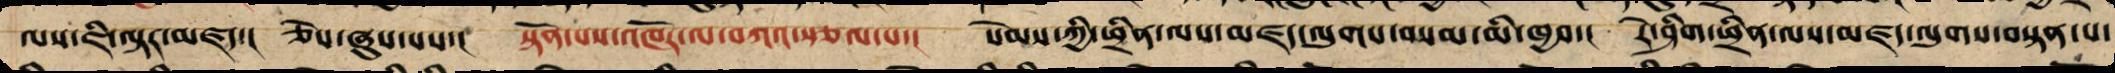ལས་ཇི་ལྟར་མཛད་། ཅེས་ཞུས་པས། སྟོན་པས་འཁོར་ལ་བཀའ་སྩལ་པ་། སེམས་ཀྱི་ཕྲིན་ལས་མཛད་ལུགས་བསམ་མི་ཁྱབ་། རེ་ཤིག་ཕྲིན་ལས་མཛད་ལུགས་བསྟན་པ་
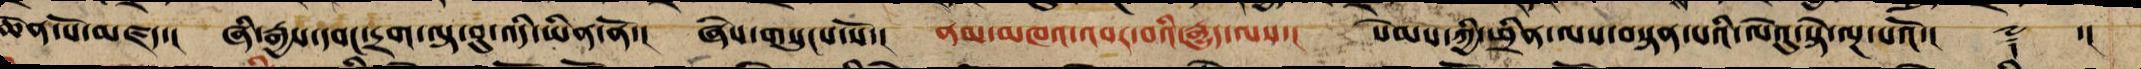ཆེན་པོ་མཛད་། ཞི་རྒྱས་དབང་དྲག་ལྟ་བུ་འདི་ཡིན་ནོ་། ཞེས་གསུངས་སོ་། ནམ་མཁའ་འབར་བའི་རྒྱུད་ལས་། སེམས་ཀྱི་ཕྲིན་ལས་བསྟན་པའི་ལེའུ་སྟེ་ལྔ་པའོ།་། ༈ ་།།
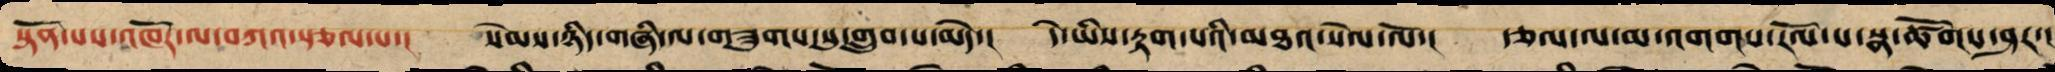སྟོན་པས་འཁོར་ལ་བཀའ་སྩལ་པ་། སེམས་ཉིད་གཞི་ལ་གཟུགས་སུ་གྲུབ་པ་མེད་། དེ་ཡིས་རྟག་པའི་མཐའ་སེལ་ལོ་། རྩལ་ལ་མ་འགགས་རོལ་བ་སྣ་ཚོགས་ཤར་།
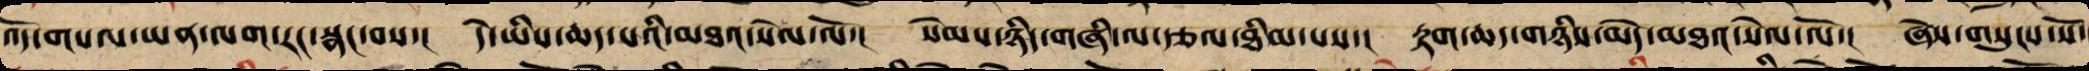འོད་གསལ་ཡན་ལག་རང་སྣང་བས་། དེ་ཡིས་ཆད་པའི་མཐའ་སེལ་ལོ་། སེམས་ཉིད་གཞི་ལ་རྩལ་ཐིམ་པས་། རྟག་ཆད་གཉིས་མེད་མཐའ་སེལ་ལོ་། ཞེས་གསུངས་སོ་
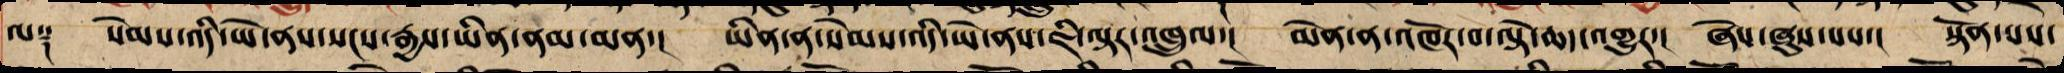ལ༑ སེམས་འདི་ཡེ་ནས་སངས་རྒྱས་ཡིན་ནམ་མིན་། ཡིན་ན་སེམས་འདི་ཡེ་ནས་ཇི་ལྟར་འཁྲུལ་། མེན་ན་འཁོར་བ་ལྟེ་ཆད་འགྱུར་། ཞེས་ཞུས་པས་། སྟོན་པས་
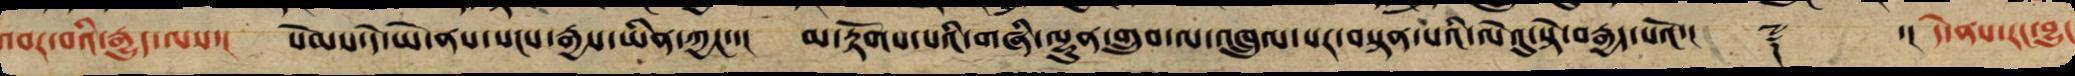འབར་བའི་རྒྱུད་ལས་། སེམས་དེ་ཡེ་ནས་སངས་རྒྱས་ཡིན་ཀྱང་་། མ་རྟོགས་པའི་གཞི་ལྷུན་གྲུབ་ལ་འཁྲུལ་པར་བསྟན་པའི་ལེའུ་སྟེ་བརྒྱད་པའོ་།། ༈ ་། དེ་ནས་རང་བྱུང
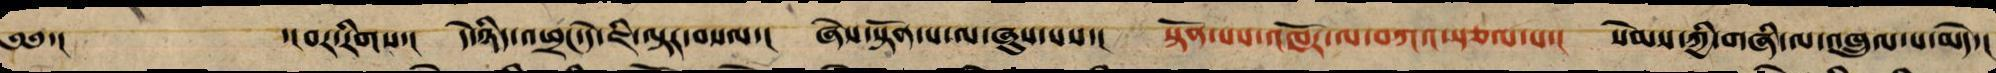༄༅་། ་།བར་རིགས་། དེ་གཉིས་འཕྲང་དེ་ཇི་ལྟར་བསལ་། ཞེས་སྟོན་པ་ལ་ཞུས་པས་། སྟོན་པས་འཁོར་ལ་བཀའ་སྩལ་པ་། སེམས་ཀྱི་གཞི་ལ་འཁྲུལ་པ་མེད་།
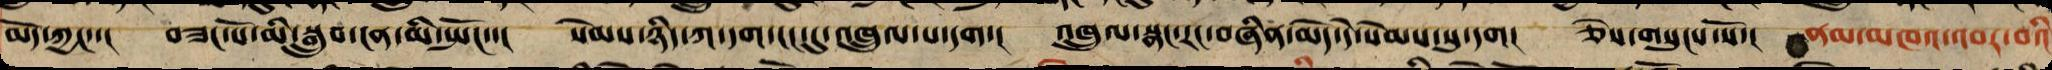མོད་ཀྱང་་། བཟང་པོ་མི་སྒྲུབ་ངན་མི་སྤོང་་། སེམས་ཉིད་ཀ་དག་ངང་དུ་འཁྲུལ་པ་དག་། འཁྲུལ་སྣང་རང་བཞིན་མེད་དེ་སེམས་སུ་དག། ཅེས་གསུངས་སོ་། ནམ་མཁའ་འབར་བའི
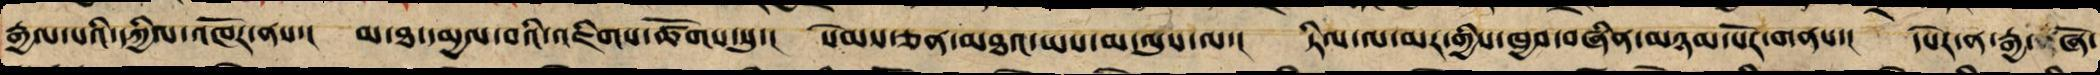རྒྱལ་བའི་དཀྱིལ་འཁོར་ནས་། མ་ཐ་དམྱལ་བའི་འཇིགས་ཚོགས་སུ་། སེམས་ཅན་མཐའ་ཡས་མ་ལུས་ལ་། ཏིལ་ལ་མར་གྱིས་ཁྱབ་བཞིན་མཉམ་པོར་གནས་། དཔེར་ན་རྒྱ་ཞོ་
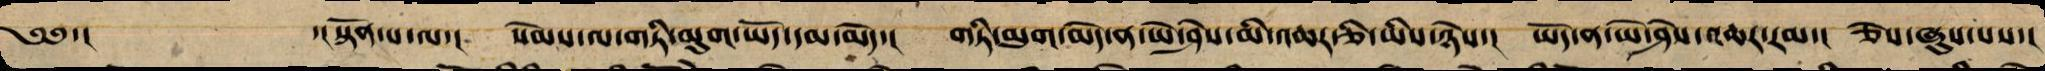༄༅་། ་།སྟོན་པ་ལ་། སེམས་ལ་གཏི་མུག་ཡོད་དམ་མེད་། གཏི་མུག་མེད་ན་ཡེ་ཤེས་མི་འཆར་ཅི་ཡིས་ཉེས་། ཡོད་ན་ཡེ་ཤེས་འཆར་རམ་། ཅེས་ཞུས་པས་།
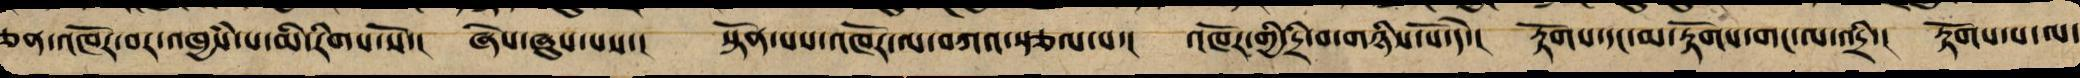ཅན་འཁོར་བར་འཁྱམས་པ་མི་རིགས་སོ་། ཞེས་ཞུས་པས་། སྟོན་པས་འཁོར་ལ་བཀའ་སྩལ་པ་། འཁོར་གྱི་དྲི་བ་གཉིས་པོ་དེ་། རྟོགས་དང་མ་རྟོགས་གང་ལ་འདྲི་། རྟོགས་པ་ལ་
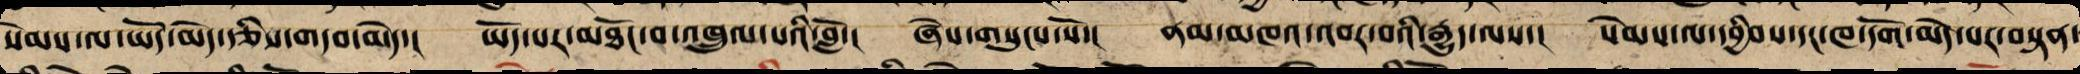སེམས་ལ་ཡོད་མེད་རྩིས་གདབ་མེད་། ཡོད་པར་མཐོང་བ་འཁྲུལ་པའི་བློ་། ཞེས་གསུངས་སོ་། ནམ་མཁའ་འབར་བའི་རྒྱུད་ལས་། སེམས་ལ་དབྱིབས་དང་ཁ་དོག་མེད་པར་བསྟན་
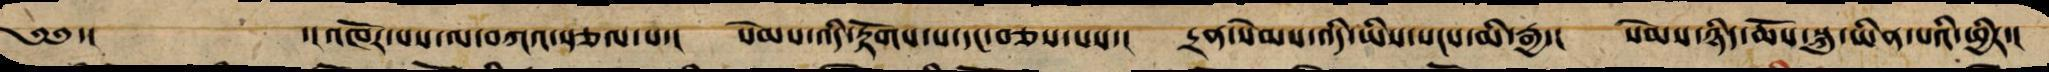༄༅་། ་།འཁོར་པས་ལ་བཀའ་སྩལ་པ་། སེམས་འདི་རྟོགས་པ་དང་བཅས་པའི་། དྲན་སེམས་འདི་ཡིས་སངས་མི་རྒྱ་། སེམས་ཉིད་ཆོས་སྐུ་ཡིན་པའི་ཕྱིར་།
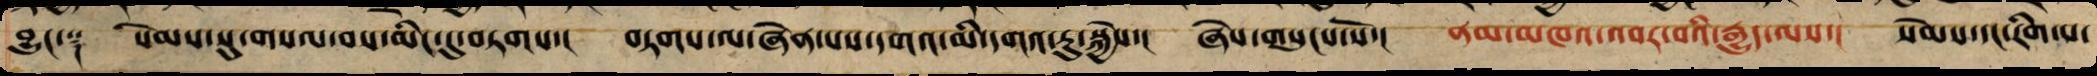འབྱུང་༑ སེམས་སུ་གསལ་བས་མིང་དུ་བཏགས་། བཏགས་ལ་ཞེན་པས་དགའ་མི་དགའ་རུ་སྐྱེས་། ཞེས་གསུངས་སོ་། ནམ་མཁའ་འབར་བའི་རྒྱུད་ལས་། སེམས་དང་རིག་པ་
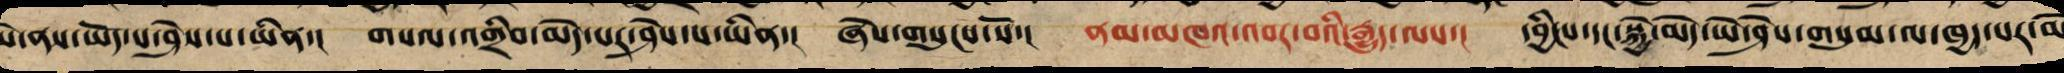ཡེ་ནས་ཡོད་པའི་ཤེས་པ་ཡིན་། གསལ་འགྲིབ་མེད་པའི་ཤེས་པ་ཡིན་། ཞེས་གསུངས་སོ་། ནམ་མཁའ་འབར་བའི་རྒྱུད་ལས་། དབྱིངས་དང་སྐྱེ་མེད་ཡེ་ཤེས་གསུམ་ལ་ཁྱད་པར་མེ
